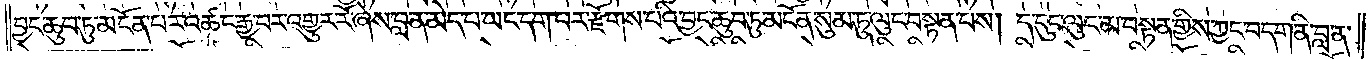བྱང་ཆུབ་ཏུ་མངོན་པར་འཚང་རྒྱ་བར་འགྱུར་རོ་ཞེས་བླ་ན་མེད་པ་ཡང་དག་པར་རྫོགས་པའི་བྱང་ཆུབ་ཏུ་མངོན་སུམ་ཏུ་ལུང་བསྟན་པས། ད་དུང་ལུང་མ་བསྟན་གྱིས་ཀྱང་བདག་ནི་བླ་ན་
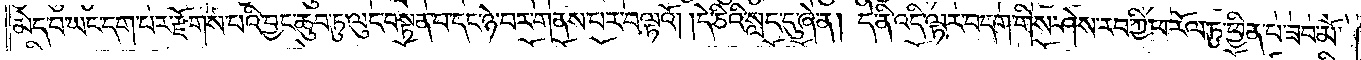མེད་པ་ཡང་དག་པར་རྫོགས་པའི་བྱང་ཆུབ་ཏུ་ལུང་བསྟན་པ་དང་ཉེ་བར་གནས་པར་བལྟའོ། །དེ་ཅིའི་སླད་དུ་ཞེ་ན། དེ་ནི་འདི་ལྟར་བདག་གིས་ཤེས་རབ་ཀྱི་ཕ་རོལ་ཏུ་ཕྱིན་པ་ཟབ་མོ་
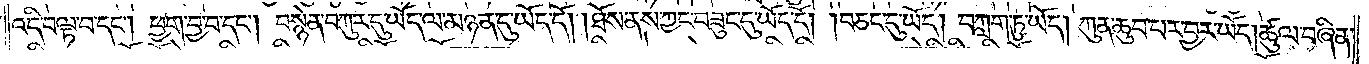འདི་བལྟ་བ་དང༌། ཕྱག་བྱ་བ་དང༌། བསྙེན་བཀུར་དུ་ཡོད་ལ་མཉན་དུ་ཡོད་དོ། །ཐོས་ནས་ཀྱང་བཟུང་དུ་ཡོད་དོ། །བཅང་དུ་ཡོད། ཀླག་ཏུ་ཡོད། ཀུན་ཆུབ་པར་བྱར་ཡོད། ཚུལ་བཞིན་
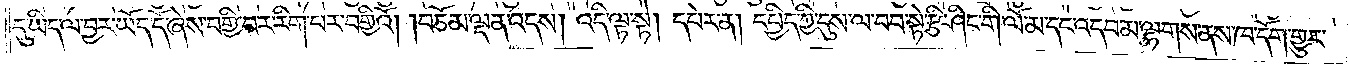དུ་ཡིད་ལ་བྱར་ཡོད་དོ་ཞེས་བགྱི་བར་རིག་པར་བགྱིའོ། །བཅོམ་ལྡན་འདས། འདི་ལྟ་སྟེ། དཔེར་ན། དཔྱིད་ཀྱི་དུས་ལ་བབ་སྟེ་རྩི་ཤིང་གི་ལོ་མ་དང་འདབ་མ་ལྷགས་ནས་ཁ་དོག་གྱུར་
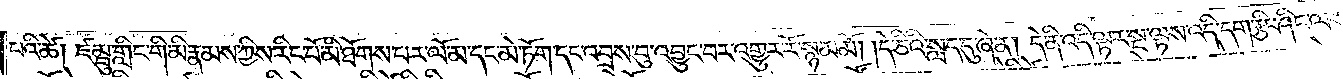པའི་ཚེ། ཛམྦུ་གླིང་གི་མི་རྣམས་ཀྱིས་རིང་པོ་མི་ཐོགས་པར་ལོ་མ་དང་མེ་ཏོག་དང་འབྲས་བུ་འབྱུང་བར་འགྱུར་རོ་སྙམ་མོ། །དེ་ཅིའི་སླད་དུ་ཞེ་ན། དེ་ནི་འདི་ལྟར་སྔ་ལྟས་འདི་དག་རྩི་ཤིང་ལས་
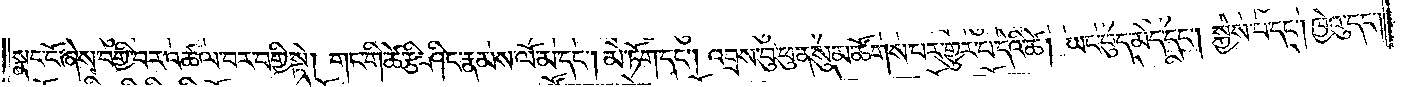སྣང་ངོ་ཞེས་བགྱི་བར་འཚལ་བར་བགྱི་སྟེ། གང་གི་ཚེ་རྩི་ཤིང་རྣམས་ལོ་མ་དང༌། མེ་ཏོག་དང༌། འབྲས་བུ་ཕུན་སུམ་ཚོགས་པར་གྱུར་པ་དེའི་ཚེ། ཡང་བུད་མེད་དང༌། སྐྱེས་པ་དང༌། ཁྱེའུ་དང༌།
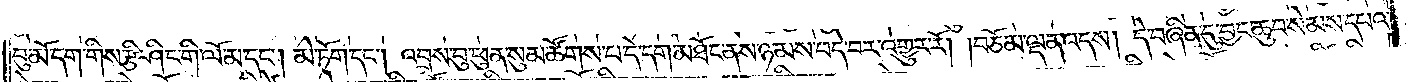བུ་མོ་དག་གིས་རྩི་ཤིང་གི་ལོ་མ་དང༌། མེ་ཏོག་དང༌། འབྲས་བུ་ཕུན་སུམ་ཚོགས་པ་དེ་དག་མཐོང་ནས་ཉམས་བདེ་བར་འགྱུར་རོ། །བཅོམ་ལྡན་འདས། དེ་བཞིན་དུ་བྱང་ཆུབ་སེམས་དཔའ་
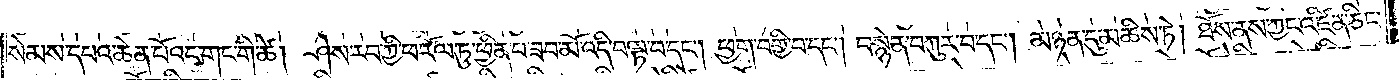སེམས་དཔའ་ཆེན་པོའང་གང་གི་ཚེ། ཤེས་རབ་ཀྱི་ཕ་རོལ་ཏུ་ཕྱིན་པ་ཟབ་མོ་འདི་བལྟ་བ་དང༌། ཕྱག་བགྱི་བ་དང༌། བསྙེན་བཀུར་བ་དང༌། མཉན་དུ་མཆིས་ཏེ། ཐོས་ནས་ཀྱང་འཛིན་ཅིང་
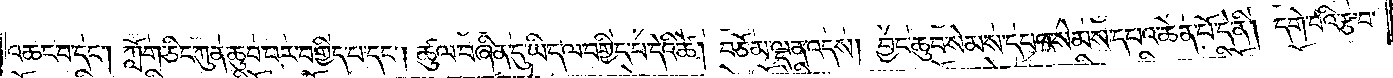འཆང་བ་དང༌། ཀློག་ཅིང་ཀུན་ཆུབ་པར་བགྱིད་པ་དང༌། ཚུལ་བཞིན་དུ་ཡིད་ལ་བགྱིད་པ་དེའི་ཚེ། བཅོམ་ལྡན་འདས། བྱང་ཆུབ་སེམས་དཔའ་སེམས་དཔའ་ཆེན་པོ་དེ་ནི། དགེ་བའི་རྩ་བ་
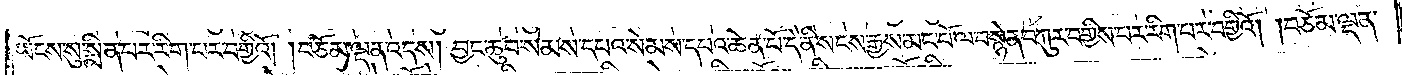ཡོངས་སུ་སྨིན་པར་རིག་པར་བགྱིའོ། །བཅོམ་ལྡན་འདས། བྱང་ཆུབ་སེམས་དཔའ་སེམས་དཔའ་ཆེན་པོ་དེ་ནི་སངས་རྒྱས་མང་པོ་ལ་བསྙེན་བཀུར་བགྱིས་པར་རིག་པར་བགྱིའོ། །བཅོམ་ལྡན་
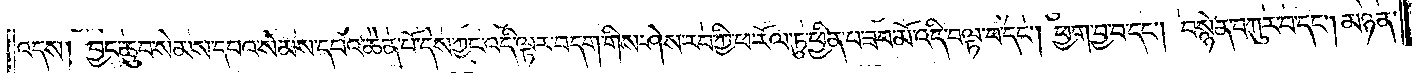འདས། བྱང་ཆུབ་སེམས་དཔའ་སེམས་དཔའ་ཆེན་པོ་དེས་ཀྱང་འདི་ལྟར་བདག་གིས་ཤེས་རབ་ཀྱི་ཕ་རོལ་ཏུ་ཕྱིན་པ་ཟབ་མོ་འདི་བལྟ་བ་དང༌། ཕྱག་བྱ་བ་དང༌། བསྙེན་བཀུར་བ་དང༌། མཉན་
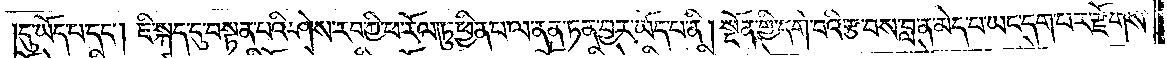དུ་ཡོད་པ་དང༌། ཇི་སྐད་དུ་བསྟན་པའི་ཤེས་རབ་ཀྱི་ཕ་རོལ་ཏུ་ཕྱིན་པ་ལ་ནན་ཏན་བྱར་ཡོད་པ་ནི། སྔོན་གྱི་དགེ་བའི་རྩ་བས་བླ་ན་མེད་པ་ཡང་དག་པར་རྫོགས་
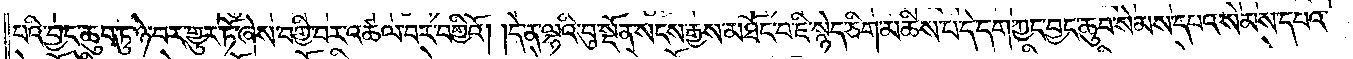པའི་བྱང་ཆུབ་ཏུ་ཉེ་བར་གྱུར་ཏོ་ཞེས་བགྱི་བར་འཚལ་བར་བགྱིའོ། །དེ་ན་ལྷའི་བུ་སྔོན་སངས་རྒྱས་མཐོང་བ་ཇི་སྙེད་ཅིག་མཆིས་པ་དེ་དག་ཀྱང་བྱང་ཆུབ་སེམས་དཔའ་སེམས་དཔའ་
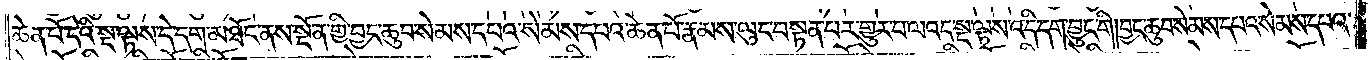ཆེན་པོ་དེའི་སྔ་ལྟས་དེ་དག་མཐོང་ནས་སྔོན་གྱི་བྱང་ཆུབ་སེམས་དཔའ་སེམས་དཔའ་ཆེན་པོ་རྣམས་ལུང་བསྟན་པར་གྱུར་པ་ལའང་སྔ་ལྟས་འདི་དག་བྱུང་གི། བྱང་ཆུབ་སེམས་དཔའ་སེམས་དཔའ་
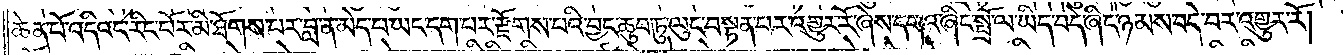ཆེན་པོ་འདིའང་རིང་པོར་མི་ཐོགས་པར་བླ་ན་མེད་པ་ཡང་དག་པར་རྫོགས་པའི་བྱང་ཆུབ་ཏུ་ལུང་བསྟན་པར་འགྱུར་རོ་ཞེས་དགའ་ཞིང་སྤྲོ་ལ་ཡིད་བདེ་ཞིང་ཉམས་བདེ་བར་འགྱུར་རོ། །
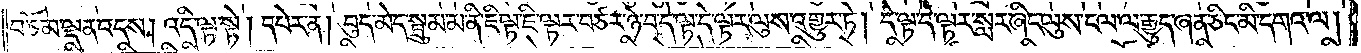བཅོམ་ལྡན་འདས། འདི་ལྟ་སྟེ། དཔེར་ན། བུད་མེད་སྦྲུམ་མ་ནི་ཇི་ལྟ་ཇི་ལྟར་བཙའ་ཉེ་བ་དེ་ལྟ་དེ་ལྟར་ལུས་འགྱུར་ཏེ། དེ་ལྟ་དེ་ལྟར་སླར་ཞིང་ལུས་ངལ་ལ་རྒྱུད་ཞན་ཅིང་མི་དགའ་ལ།
